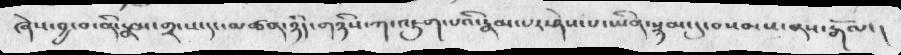ཞེས་བྱ་བ་ནི་རྣམ་གྲངས་དང་མཚན་ཉིད་གཉིས་ཀ་འཇུག་པའི་རྣམ་པར་ཤེས་པ་ཡིན་སྙམ་དུ་བསམས་ནས་རྒོལ་།
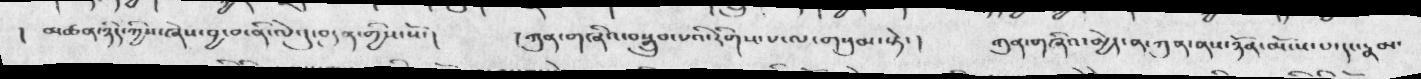།  མཚན་ཉིད་ཀྱིས་ཞེས་བྱ་བ་ནི་ལེའུ་བདུན་གྱིས་སོ་།    ། ཀུན་གཞིའ་བསྒྲུབ་པའི་རིགས་པ་ལ་གསུམ་སྟེ་།  ཀུན་གཞིའ་མྱེད་ན་ཀུན་ནས་ཉོན་མོངས་པ་དང་རྣམ་
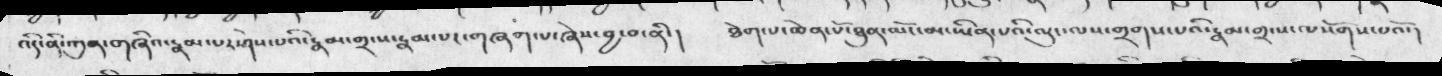འདི་ནི་ཀུན་གཞིའ་རྣམ་པར་ཤེས་པའི་རྣམ་གྲངས་རྣམ་པར་གཞག་པ་ཞེས་བྱ་བ་ནི་།  ཐེག་པ་ཆེན་པོ་ཐུན་མོང་མ་ཡིན་པའི་ལུང་ལས་གྲགས་པའི་རྣམ་གྲངས་ལསོགས་པའོ་།
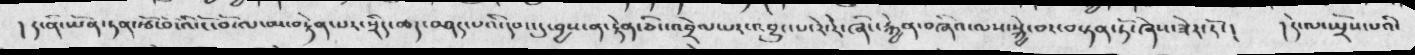། ད་ན་ཡོན་ཏན་རྩོ་བོ་འི་ངོ་བོ་ལ་མ་བརྟེན་པར་སྲིད་ཆར་བཤད་པའི་དབང་དུ་བྱས་ན་རྟེན་ཅིང་འབྲེལ་པར་འབྱུང་པ་རེ་རེ་ཞིང་རྐྱེན་བཞིའ་ལས་སྐྱེ་བར་བསྟན་ཏོ་ཞེས་ཟེར་རོ་།   ། དེ་ལས་ཡྲོས་པའི་
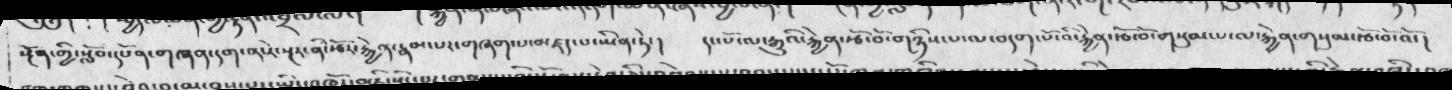སྔོན་གྱི་སློབ་དཔོན་གཞན་དག་ན་རེ་སྔར་ནི་ཕོར་རྐྱེན་རྣམ་པར་གཞག་པ་མཛད་པ་ཡིན་ཏེ་།  དང་པོ་ལ་རྒྱུའི་རྐྱེན་རྩོ་བོ་གཉིས་པ་ལ་བདག་པོ་འི་རྐྱེན་རྩོ་གསུམ་པ་ལ་རྐྱེན་གསུམ་རྩོ་བོ་མོ།
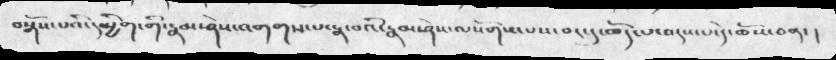བསྒོས་པའི་དམྱིག་གི་རྣམ་ཤེས་འགགས་པ་རྣ་བའི་རྣམ་ཤེས་ལསོགས་པས་བར་དུ་ཆོད་པ་འདས་པ་དེ་ཆོས་ཅན་།
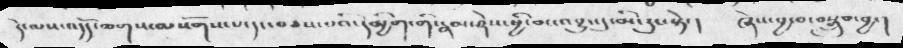དེ་ལས་འདོད་ཆགས་ལསོགས་པ་དང་བཅས་པའི་དམྱིག་གི་རྣམ་ཤེས་ཕྱི་མ་འབྱུང་དུ་མི་རུང་སྟེ་།    ཞེས་བྱ་བ་བསྒྲུབ་བྱ་།
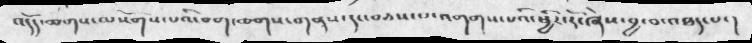འདོད་ཆགས་ལསོགས་པའི་བག་ཆགས་གནས་དང་བཅས་པ་འགགས་པའི་ཕྱིར་རོ་ཞེས་བྱ་བ་འཐད་པ་།
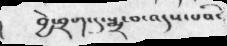བྱེ་བྲག་དུ་སྨྲ་བ་འདས་པའི་
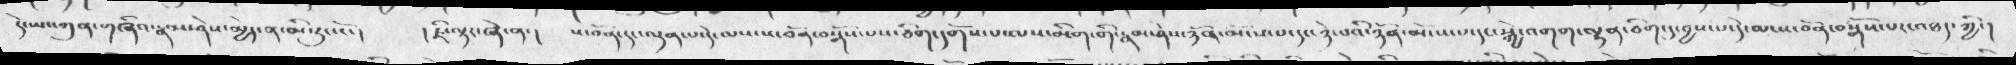དེ་ཡང་ཀུན་གཞིའ་རྣམ་ཤེས་མྱེད་ན་མི་རུང་ངོ་།  ། ཇི་ལྟར་ཞེ་ན་།  ས་བོན་དང་ལྡན་པ་དེ་ལས་ས་བོན་བསྒོས་པས་ཅིག་དགོས་པ་ལས་མིག་གི་རྣམ་ཤེས་ཉོན་མོངས་པ་དང་ཉེ་པའི་ཉོན་མོངས་པ་དང་སྐྱེ་འགག་ལྷན་ཅིག་དུ་བྱས་པ་དེ་ལ་ས་བོན་བསྒོས་པར་འཐད་ཀྱི་།
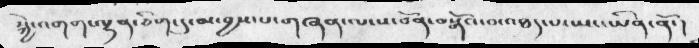སྐྱེ་འགག་ལྷན་ཅིག་དུ་མ་བྱས་པ་གཞན་ལ་ས་བོན་བསྒོའ་བ་འཐད་པ་ཡང་ཡིན་ནོ་།
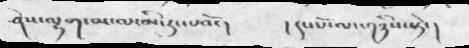ཤེས་ལྷག་མ་ལ་མི་རུང་པའོ་།                 ། དང་པོ་ལ་གཉིས་སྟེ་།
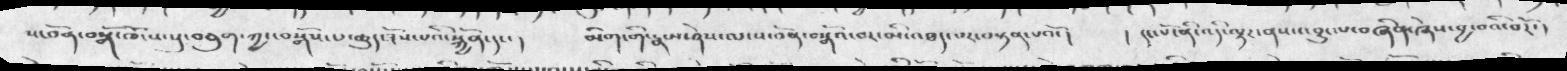ས་བོན་བསྒོ་ཁོངས་སུ་བཅུག་ཀྱང་བསྒོས་པ་ཆུད་ཟོས་པའི་དང་།   མིག་གི་རྣམ་ཤེས་ལ་ས་བོན་བསྒོའ་བར་མི་འཐད་པར་བསྟན་པའོ་།   ། དང་པོ་ནི་འདི་ལྟར་ནས་འབྱུང་པ་བཞིན་ཞེས་བྱ་བའི་བརོ་།
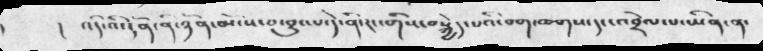།  འདི་འི་དོན་ནི་ཉོན་མོངས་བ་བྱུང་པ་དེ་ནི་རང་གིས་བསྐྱེད་པའི་བག་ཆགས་དང་འབྲེལ་པ་ཡིན་ན་
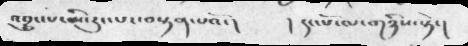འབྱུང་པ་མི་རུང་པར་བསྟན་པའོ་།   ། དང་པོ་ལ་གཉིས་སྟེ་།
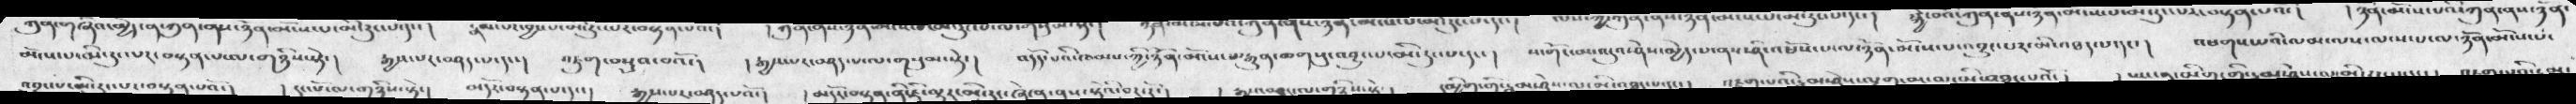མོངས་པ་མི་རུང་པར་བསྟན་པ་ལ་གཉིས་སྟེ་།  རྒྱས་པར་བཤད་པ་དང་།  འཇུག་བསྡུབ་བའོ་།  ། རྒྱས་པར་བཤད་པ་ལ་གསུམ་སྟེ་།  འདོད་པའི་ཁམས་ཀྱི་ཉོན་མོངས་པ་རྒྱུན་ཆགསུ་འབྱུང་པ་མི་རུང་པ་དང་།  ས་གོང་མ་འདུའ་ཤེས་མྱེད་པ་ནས་ཤི་འཕོས་པ་ལ་ཉོན་མོངས་པ་འབྱུང་པར་མི་འཐད་པ་དང་།  འཕགས་པའི་ལམ་ལས་ལམ་པ་ལ་ཉོན་མོངས་པ་
